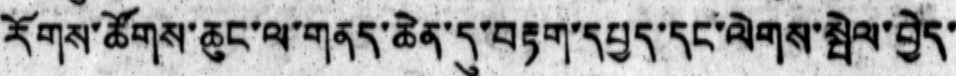རོགས་ཚོགས་ཆུང་ལ་གནད་ཆེན་དུ་བརྟག་དཔྱད་དང་ལེགས་སྤེལ་བྱེད་
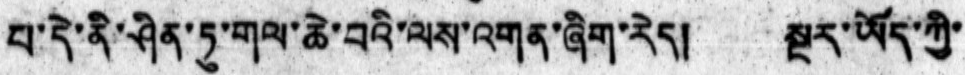པ་དེ་ནི་ཤིན་ཏུ་གལ་ཆེ་བའི་ལས་འགན་ཞིག་རེད། སྔར་ཡོད་ཀྱི་
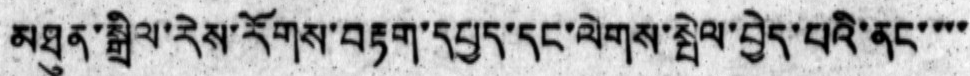མཐུན་སྒྲིལ་རེས་རོགས་བརྟག་དཔྱད་དང་ལེགས་སྤེལ་བྱེད་པའི་ནང་་་་
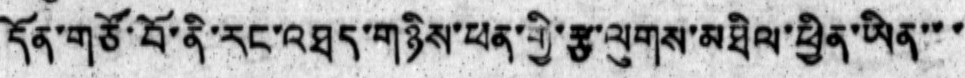དོན་གཙོ་བོ་ནི་རང་འཐད་གཉིས་ཕན་གྱི་རྩ་ལུགས་མཐིལ་ཕྱིན་ཡིན་་་
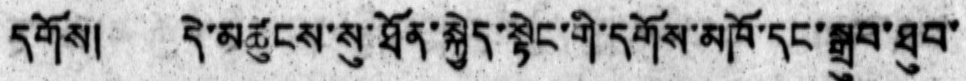དགོས། དེ་མཚུངས་སུ་ཐོན་སྐྱེད་སྟེང་གི་དགོས་མཁོ་དང་སྒྲུབ་ཐུབ་
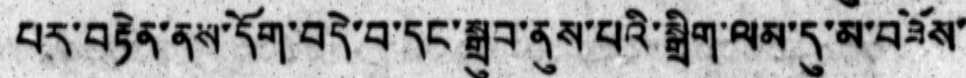པར་བརྟེན་ནས་དོག་བདེ་བ་དང་སྒྲུབ་ནུས་པའི་སྒྲིག་ལམ་དུ་མ་བཟོས་
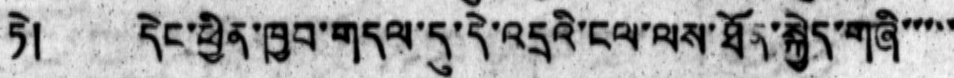ཏེ། དེང་ཕྱིན་ཁྱབ་གདལ་དུ་དེ་འདྲའི་ངལ་ལས་ཐོན་སྐྱེད་གཞི་་་་་་
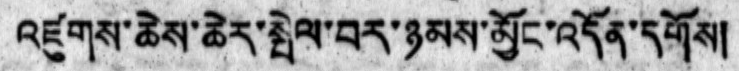འཛུགས་ཆེས་ཆེར་སྤེལ་བར་ཉམས་མྱོང་འདོན་དགོས།
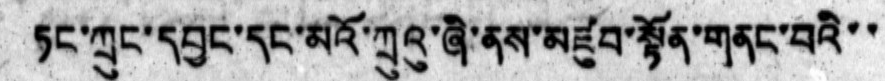ཏང་ཀྲུང་དབྱང་དང་མའོ་ཀྲུའུ་ཞི་ནས་མཛུབ་སྟོན་གནང་བའི་་
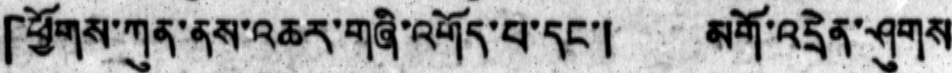「ཕྱོགས་ཀུན་ནས་འཆར་གཞི་འགོད་པ་དང་། མགོ་འདྲེན་ཤུགས
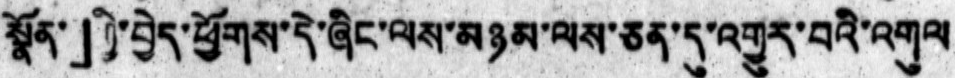སྣོན་」ཀྱི་བྱེད་ཕྱོགས་དེ་ཞིང་ལས་མཉམ་ལས་ཅན་དུ་འགྱུར་བའི་འགུལ
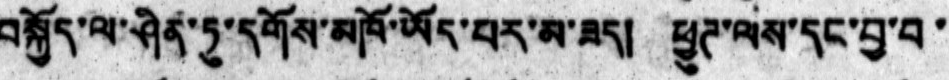བསྐྱོད་ལ་ཤིན་ཏུ་དགོས་མཁོ་ཡོད་པར་མ་ཟད།  ཕྱུཊ་ལས་དང་བྱ་བ་
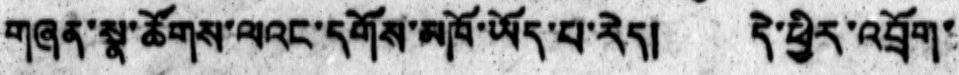གཞན་སྣ་ཚོགས་ལའང་དགོས་མཁོ་ཡོད་པ་རེད། དེ་ཕྱིར་འབྲོག་
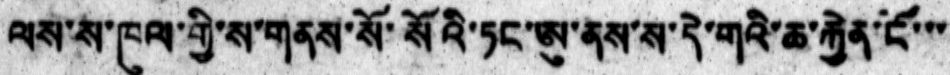ལས་ས་ཁུལ་གྱི་ས་གནས་སོ་སོའི་ཏང་ཨུ་ནས་ས་དེ་གའི་ཆ་རྐྱེན་ངོ་་་
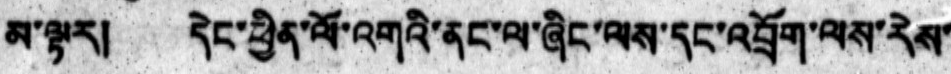མ་ལྟར། དེང་ཕྱིན་ལོ་འགའི་ནང་ལ་ཞིང་ལས་དང་འབྲོག་ལས་རེས་
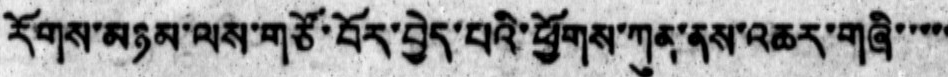རོགས་མཉམ་ལས་གཙོ་བོར་བྱེད་པའི་ཕྱོགས་ཀུན་ནས་འཆར་གཞི་་་་་
